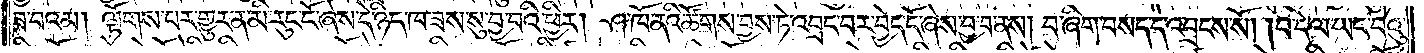ཟ་བའམ། ལྟོགས་པར་གྱུར་ན་མི་རུང་ངོ་ཞེས་དེ་ཉིད་ཁ་ཟས་སུ་བྱ་བའི་ཕྱིར། ཤ་ཁོ་ནའི་ཚོགས་བྱས་ཏེ་འབྲང་བར་བྱེད་དོ་ཞེས་བྱ་བ་ནས། བ་ཞིག་བསད་དེ་འབྲངས་སོ། །བ་དེ་ལ་ཡང་བེའུ་
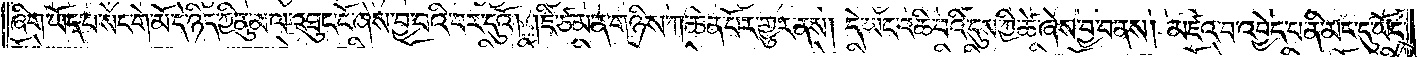ཞིག་ཡོད་པ་སེང་གེ་མོ་དེ་ཉིད་ཀྱི་ནུ་མ་ལ་འཐུང་ངོ་ཞེས་བྱ་བའི་བར་དུའོ། །ཇི་ཙམ་ན་གཉིས་ཀ་ཆེན་པོར་གྱུར་ནས། དེ་ཡང་འཆི་བའི་དུས་ཀྱི་ཚེ་ཞེས་བྱ་བ་ནས། མཛའ་བ་འབྱེད་པ་ནི་མང་དུ་ཡོད་
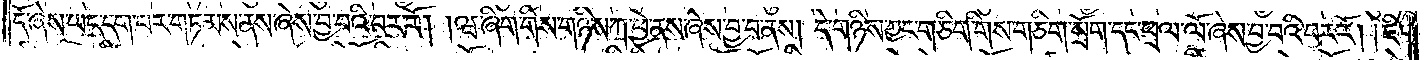དོ་ཞེས་ཡང་དག་པར་གཏམས་ནས་ཞེས་བྱ་བའི་བར་རོ། །ཝ་ཞིག་གིས་གཉིས་ཀ་ཕྱེ་ནས་ཞེས་བྱ་བ་ནས། དེ་གཉིས་ཀྱང་གཅིག་གིས་གཅིག་སྲོག་དང་ཕྲལ་ལོ་ཞེས་བྱ་བའི་བར་རོ། །ཇི་
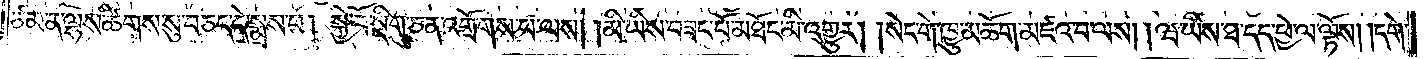ཙམ་ན་ལྷས་ཚིགས་སུ་བཅད་དེ་སྨྲས་པ། སྐྱེ་བོ་སྡིག་ཅན་འགྲོགས་པ་ལས། །མི་ཡིས་བཟང་པོ་མཐོང་མི་འགྱུར། །སེང་གེ་ཁྱུ་མཆོག་མཛའ་བ་ལས། །ཝ་ཡིས་ཐ་དད་ཕྱེ་ལ་ལྟོས། །དགེ་
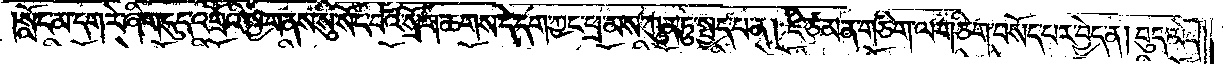སློང་མ་དག་རེ་ཞིག་དུད་འགྲོའི་སྐྱེ་གནས་སུ་སོང་བའི་སྲོག་ཆགས་དེ་དག་ཀྱང་ཕྲ་མས་ཀུན་ཏུ་སྤྱད་པ་ན། ཇི་ཙམ་ན་གཅིག་ལ་གཅིག་བསོད་པར་བྱེད་ན། བུད་མེད་
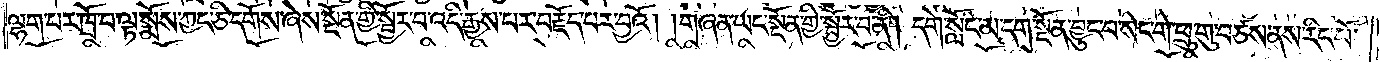ལྷག་པར་ཁྲོ་བ་ལྟ་སྨོས་ཀྱང་ཅི་དགོས་ཞེས་སྔོན་གྱི་སྦྱོར་བ་འདི་རྒྱས་པར་བརྗོད་པར་བྱའོ། །གཞན་ཡང་སྔོན་གྱི་སྦྱོར་བ་ནི། དགེ་སློང་མ་དག་སྔོན་བྱུང་བ་སེང་གེ་ཕྲུ་གུ་བཙས་ནས་རིང་པོ་
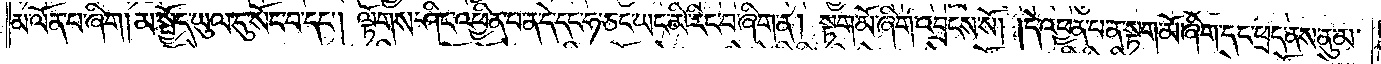མ་ལོན་པ་ཞིག །མ་སྤྱོད་ཡུལ་དུ་སོང་བ་དང༌། ལྟོགས་ཤིང་འཕྱིན་པ་ན་དེ་དང་ཧ་ཅང་ཡང་མི་རིང་བ་ཞིག་ན། སྟག་མོ་ཞིག་འབྲངས་སོ། །དེ་འཕྱན་པ་ན་སྟག་མོ་ཞིག་དང་ཕྲད་ནས་ནུ་མ་
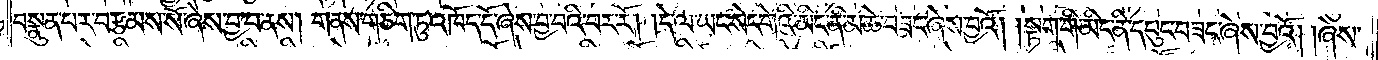བསྣུན་པར་བརྩམས་སོ་ཞེས་བྱ་བ་ནས། གནས་གཅིག་ཏུ་འཁོད་དོ་ཞེས་བྱ་བའི་བར་རོ། །དེ་ལ་ཡང་སེང་གེའི་མིང་ནི་མཆེ་བཟང་ཞེས་བྱའོ། །སྟག་གི་མིང་ནི་དཔུང་བཟང་ཞེས་བྱའོ། །ཞེས་
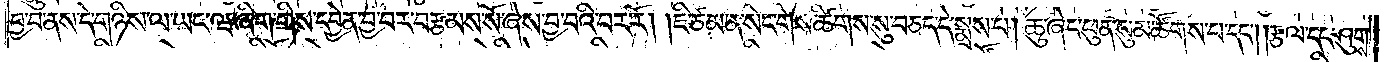བྱ་བ་ནས་དེ་གཉིས་ལ་ཡང་ཝ་ཞིག་གིས་དབྱེན་བྱ་བར་བརྩམས་སོ་ཞེས་བྱ་བའི་བར་རོ། །ཇི་ཙམ་ན་སེང་གེས་ཚིགས་སུ་བཅད་དེ་སྨྲས་པ། ཆུ་ཞེང་ཕུན་སུམ་ཚོགས་པ་དང༌། །རྩལ་དང་ཤུགས་
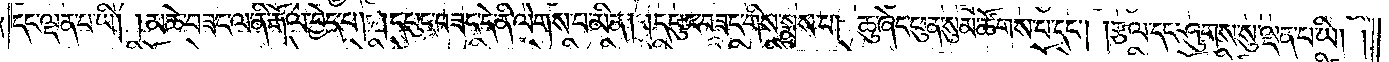དང་ལྡན་པ་ཡི། །མཆེ་བཟང་ལ་ནི་རྒོལ་བྱེད་པ། །དཔུང་བཟང་དེ་ནི་ལེགས་པ་མིན། །དཔུང་བཟང་གིས་སྨྲས་པ། ཆུ་ཞེང་ཕུན་སུམ་ཚོགས་པ་དང༌། །རྩལ་དང་ཤུགས་སུ་ལྡན་པ་ཡི། །
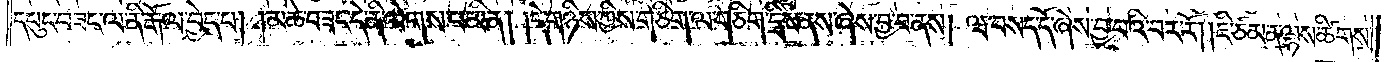དཔུང་བཟང་ལ་ནི་རྒོལ་བྱེད་པ། །མཆེ་བཟང་དེ་ནི་ལེགས་པ་མིན། །དེ་གཉིས་ཀྱིས་གཅིག་ལ་གཅིག་དྲིས་ནས་ཞེས་བྱ་བ་ནས། ཝ་བསད་དོ་ཞེས་བྱ་བའི་བར་རོ། །ཇི་ཙམ་ན་ལྷས་ཚིགས་
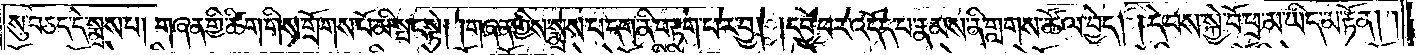སུ་བཅད་དེ་སྨྲས་པ། གཞན་གྱི་ཚིག་གིས་གྲོགས་པོ་མི་སྤང་སྟེ། །གཞན་གྱིས་སྨྲས་པ་དག་ནི་བརྟག་པར་བྱ། །དབྱེ་བར་འདོད་པ་རྣམས་ནི་གླགས་ཚོལ་བྱེད། །དེ་བས་སྐྱེ་བོ་ཕྲ་མ་ཡིད་མ་རྟོན། །
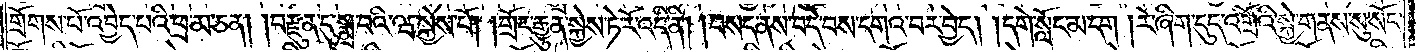གྲོགས་པོ་འབྱེད་པའི་ཕྲ་མ་ཅན། །བརྫུན་དུ་སྨྲ་བའི་ཝ་སྐྱེས་པོ། །གྲོང་རྒྱུན་སྐྱེས་ཏེ་རོ་འདི་ནི། །བསད་ནས་བདེ་བས་དགའ་བར་བྱེད། །དགེ་སློང་མ་དག །རེ་ཞིག་དུད་འགྲོའི་སྐྱེ་གནས་སུ་སོང་
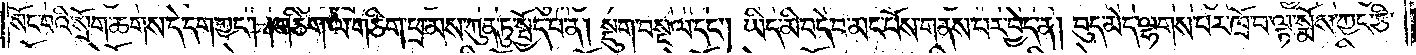སོང་བའི་སྲོག་ཆགས་དེ་དག་ཀྱང༌། །གཅིག་ལ་གཅིག་ཕྲ་མས་ཀུན་ཏུ་སྤྱོད་པ་ན། སྡུག་བསྔལ་དང༌། ཡིད་མི་བདེ་བ་མང་པོས་གནས་པར་བྱེད་ན། བུད་མེད་ལྷགས་པར་ཁྲོ་བ་ལྟ་སྨོས་ཀྱང་ཅི་
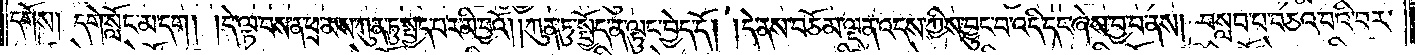དགོས། དགེ་སློང་མ་དག། །དེ་ལྟ་བས་ན་ཕྲ་མས་ཀུན་ཏུ་སྤྱད་པར་མི་བྱའོ། །ཀུན་ཏུ་སྤྱོད་ན་ལྟུང་བྱེད་དོ། །དེ་ནས་བཅོམ་ལྡན་འདས་ཀྱིས་བྱུང་བ་འདི་དང་ཞེས་བྱ་བ་ནས། བསླབ་པ་བཅའ་བའི་བར་
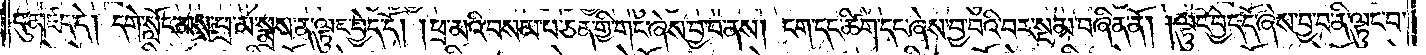དུ་མཛད་དེ། དགེ་སློང་མས་ཕྲ་མ་སྨྲས་ན་ལྟུང་བྱེད་དོ། །ཕྲ་མའི་བསམ་པ་ཅན་གྱི་གང་ཞེས་བྱ་བ་ནས། ངག་དང་ཚིག་དང་ཞེས་བྱ་བའི་བར་སྔ་མ་བཞིན་ནོ། །ལྟུང་བྱེད་དོ་ཞེས་བྱ་བ་ནི་ལྟུང་བ་
